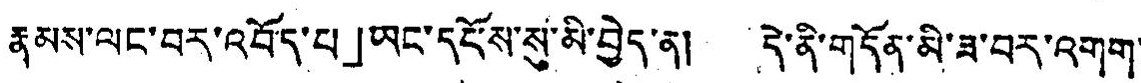རྣམས་ལུང་བར་འབོད་པ」ཡང་དངོས་སུ་མི་བྱེད་ན། དེ་ནི་གདོན་མི་ཟ་བར་འགག་
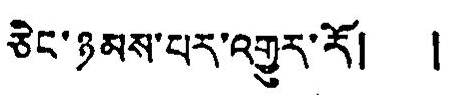ཅིང་ཉམས་པར་འགྱུར་རོ། །
